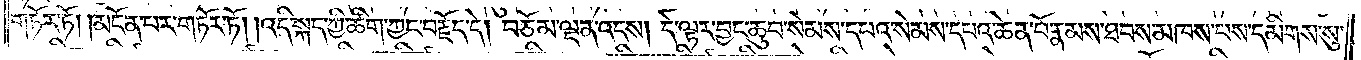གཏོར་ཏོ། །མངོན་པར་གཏོར་ཏོ། །འདི་སྐད་ཀྱི་ཚིག་ཀྱང་བརྗོད་དེ། བཅོམ་ལྡན་འདས། དེ་ལྟར་བྱང་ཆུབ་སེམས་དཔའ་སེམས་དཔའ་ཆེན་པོ་རྣམས་ཐབས་མཁས་པས་དམིགས་སུ་
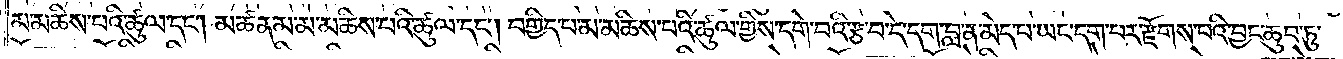མ་མཆིས་པའི་ཚུལ་དང༌། མཚན་མ་མ་མཆིས་པའི་ཚུལ་དང༌། བགྱིད་པ་མ་མཆིས་པའི་ཚུལ་གྱིས་དགེ་བའི་རྩ་བ་དེ་དག་བླ་ན་མེད་པ་ཡང་དག་པར་རྫོགས་པའི་བྱང་ཆུབ་ཏུ་
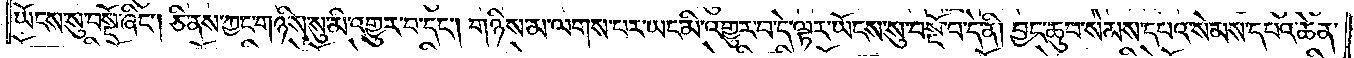ཡོངས་སུ་བསྔོ་ཞིང༌། ཅི་ནས་ཀྱང་གཉིས་སུ་མི་འགྱུར་བ་དང༌། གཉིས་མ་ལགས་པར་ཡང་མི་འགྱུར་བ་དེ་ལྟར་ཡོངས་སུ་བསྔོ་བ་དེ་ནི། བྱང་ཆུབ་སེམས་དཔའ་སེམས་དཔའ་ཆེན་
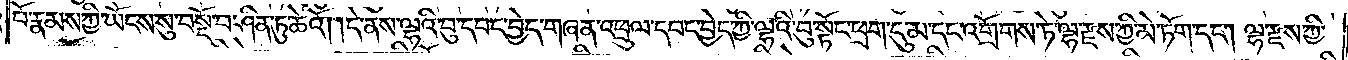པོ་རྣམས་ཀྱི་ཡོངས་སུ་བསྔོ་བ་ཤིན་ཏུ་ཆེའོ། །དེ་ནས་ལྷའི་བུ་དབང་བྱེད་གཞན་འཕྲུལ་དབང་བྱེད་ཀྱི་ལྷའི་བུ་སྟོང་ཕྲག་དུ་མ་དང་འགྲོགས་ཏེ་ལྷ་རྫས་ཀྱི་མེ་ཏོག་དང༌། ལྷ་རྫས་ཀྱི་
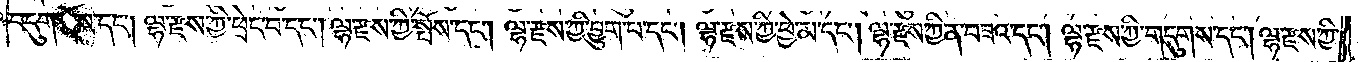བདུག་སྤོས་དང༌། ལྷ་རྫས་ཀྱི་ཕྲེང་བ་དང༌། ལྷ་རྫས་ཀྱི་སྤོས་དང༌། ལྷ་རྫས་ཀྱི་བྱུག་པ་དང༌། ལྷ་རྫས་ཀྱི་ཕྱེ་མ་དང༌། ལྷ་རྫས་ཀྱི་ན་བཟའ་དང༌། ལྷ་རྫས་ཀྱི་གདུགས་དང༌། ལྷ་རྫས་ཀྱི་
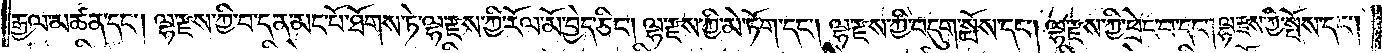རྒྱལ་མཚན་དང༌། ལྷ་རྫས་ཀྱི་བ་དན་མང་པོ་ཐོགས་ཏེ་ལྷ་རྫས་ཀྱི་རོལ་མོ་བྱེད་ཅིང༌། ལྷ་རྫས་ཀྱི་མེ་ཏོག་དང༌། ལྷ་རྫས་ཀྱི་བདུག་སྤོས་དང༌། ལྷ་རྫས་ཀྱི་ཕྲེང་བ་དང༌། ལྷ་རྫས་ཀྱི་སྤོས་དང༌།
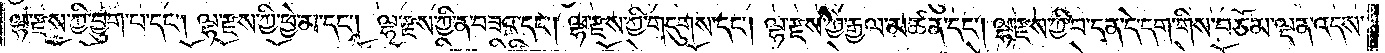ལྷ་རྫས་ཀྱི་བྱུག་པ་དང༌། ལྷ་རྫས་ཀྱི་ཕྱེ་མ་དང༌། ལྷ་རྫས་ཀྱི་ན་བཟའ་དང༌། ལྷ་རྫས་ཀྱི་གདུགས་དང༌། ལྷ་རྫས་ཀྱི་རྒྱལ་མཚན་དང༌། ལྷ་རྫས་ཀྱི་བ་དན་དེ་དག་གིས་བཅོམ་ལྡན་འདས་
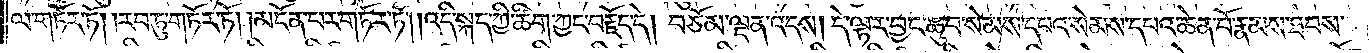ལ་གཏོར་ཏོ། །རབ་ཏུ་གཏོར་ཏོ། །མངོན་པར་གཏོར་ཏོ། །འདི་སྐད་ཀྱི་ཚིག་ཀྱང་བརྗོད་དེ། བཅོམ་ལྡན་འདས། ད་ལྟར་བྱང་ཆུབ་སེམས་དཔའ་སེམས་དཔའ་ཆེན་པོ་རྣམས་ཐབས་
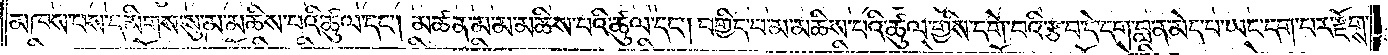མཁས་པས་དམིགས་སུ་མ་མཆིས་པའི་ཚུལ་དང༌། མཚན་མ་མ་མཆིས་པའི་ཚུལ་དང༌། བགྱིད་པ་མ་མཆིས་པའི་ཚུལ་གྱིས་དགེ་བའི་རྩ་བ་དེ་དག་བླ་ན་མེད་པ་ཡང་དག་པར་རྫོགས་
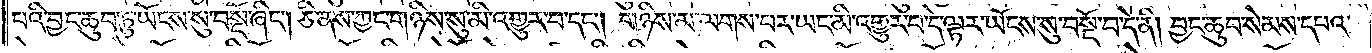པའི་བྱང་ཆུབ་ཏུ་ཡོངས་སུ་བསྔོ་ཞིང༌། ཅི་ནས་ཀྱང་གཉིས་སུ་མི་འགྱུར་བ་དང༌། གཉིས་མ་ལགས་པར་ཡང་མི་འགྱུར་བ་དེ་ལྟར་ཡོངས་སུ་བསྔོ་བ་དེ་ནི། བྱང་ཆུབ་སེམས་དཔའ་
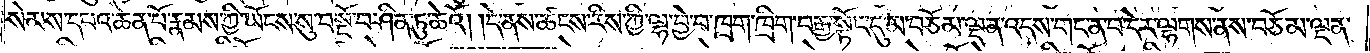སེམས་དཔའ་ཆེན་པོ་རྣམས་ཀྱི་ཡོངས་སུ་བསྔོ་བ་ཤིན་ཏུ་ཆེའོ། །དེ་ནས་ཚངས་རིས་ཀྱི་ལྷ་བྱེ་བ་ཁྲག་ཁྲིག་བརྒྱ་སྟོང་དུ་མ་བཅོམ་ལྡན་འདས་གང་ན་བ་དར་ལྷགས་ནས་བཅོམ་ལྡན་
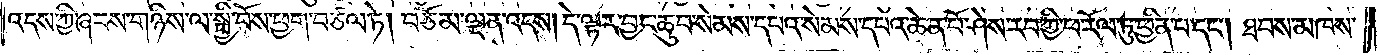འདས་ཀྱི་ཞབས་གཉིས་ལ་སྤྱི་བོས་ཕྱག་བཙལ་ཏེ། བཅོམ་ལྡན་འདས། དེ་ལྟར་བྱང་ཆུབ་སེམས་དཔའ་སེམས་དཔའ་ཆེན་པོ་ཤེས་རབ་ཀྱི་ཕ་རོལ་ཏུ་ཕྱིན་པ་དང༌། ཐབས་མཁས་
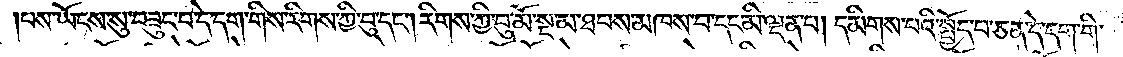པས་ཡོངས་སུ་བཟུང་བ་དེ་དག་གིས་རིགས་ཀྱི་བུ་དང༌། རིགས་ཀྱི་བུ་མོ་སྔ་མ་ཐབས་མཁས་པ་དང་མི་ལྡན་པ། དམིགས་པའི་སྤྱོད་པ་ཅན་དེ་དག་གི་
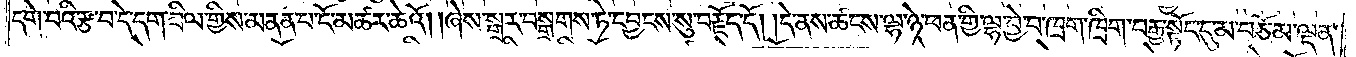དགེ་བའི་རྩ་བ་དེ་དག་ཟིལ་གྱིས་མནན་པ་ངོ་མཚར་ཆེའོ། །ཞེས་སྒྲར་བསྒྲགས་ཏེ་དབྱངས་སུ་བརྗོད་དོ། །དེ་ནས་ཚངས་ལྷ་ཉེ་ཕན་གྱི་ལྷ་བྱེ་བ་ཁྲག་ཁྲིག་བརྒྱ་སྟོང་དུ་མ་བཅོམ་ལྡན་
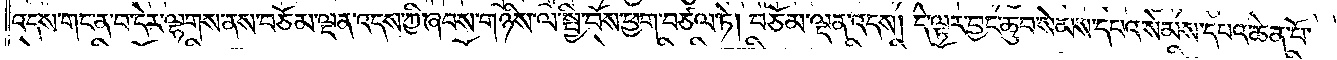འདས་གང་ན་བ་དར་ལྷགས་ནས་བཅོམ་ལྡན་འདས་ཀྱི་ཞབས་གཉིས་ལ་སྤྱི་བོས་ཕྱག་བཙལ་ཏེ། བཅོམ་ལྡན་འདས། དེ་ལྟར་བྱང་ཆུབ་སེམས་དཔའ་སེམས་དཔའ་ཆེན་པོ་
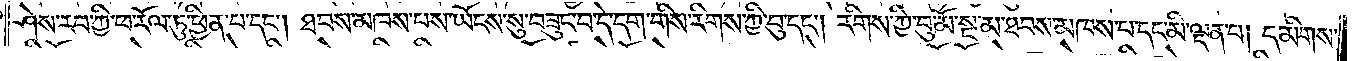ཤེས་རབ་ཀྱི་ཕ་རོལ་ཏུ་ཕྱིན་པ་དང༌། ཐབས་མཁས་པས་ཡོངས་སུ་བཟུང་བ་དེ་དག་གིས་རིགས་ཀྱི་བུ་དང༌། རིགས་ཀྱི་བུ་མོ་སྔ་མ་ཐབས་མཁས་པ་དང་མི་ལྡན་པ། དམིགས་
